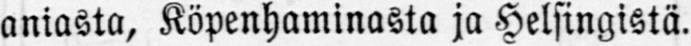aniasta, Köpenhaminasta ja Helsingistä.
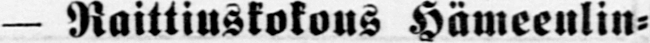— Raittiuskokous Hämeenlin-
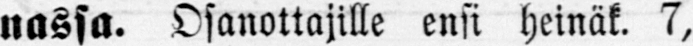nassa. Osanottajille ensi heinäk. 7,
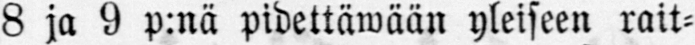8 ja 9 p:nä pidettäwään yleiseen rait-
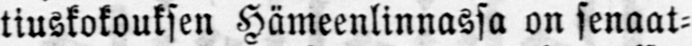tiuskokouksen Hämeenlinnassa on senaat-
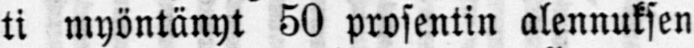ti myöntänyt 50 prosentin alennuksen
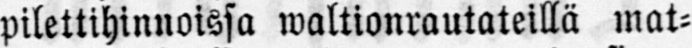pilettihinnoissa waltionrautateillä mat-
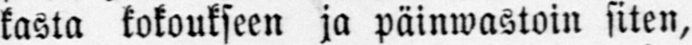kasta kokoukseen ja päinwastoin siten,
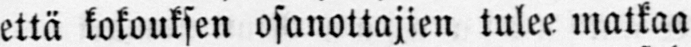että kokouksen osanottajien tulee matkaa
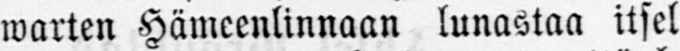warten Hämeenlinnaan lunastaa itsel-
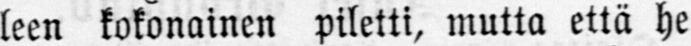leen kokonainen piletti, mutta että he
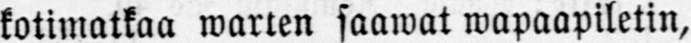kotimatkaa warten saawat wapaapiletin,
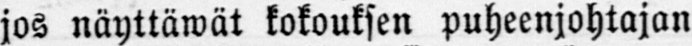jos näyttäwät kokouksen puheenjohtajan
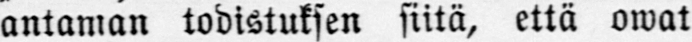antaman todistuksen siitä, että owat
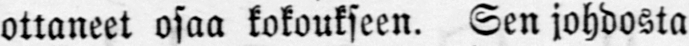ottaneet osaa kokoukseen. Sen johdosta
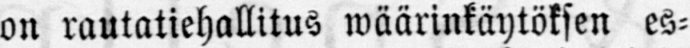on rautatiehallitus wäärinkäytöksen es-
